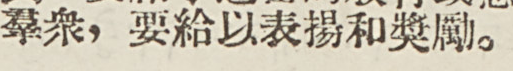羣衆，要給以表揚和獎勵。
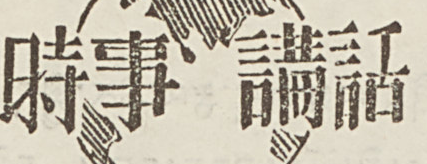時事 講話
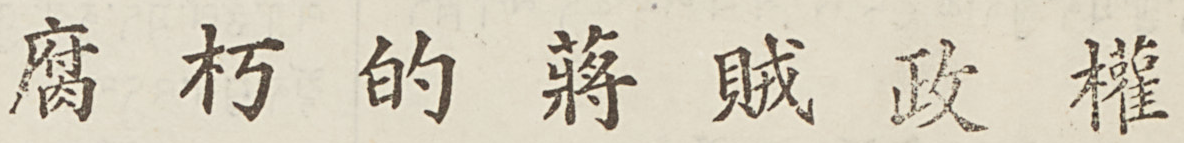腐 朽 的 蔣 賊 政 權
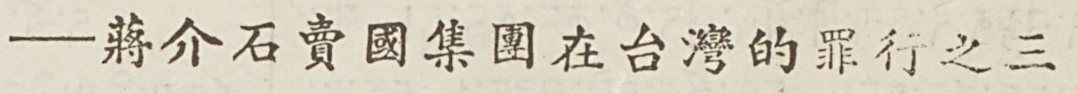——蔣介石賣國集團在台灣的罪行之三
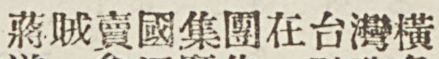蔣賊賣國集團在台灣橫
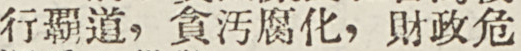行霸道，貪污腐化，財政危
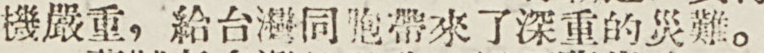機嚴重，給台灣同胞帶來了深重的災難。
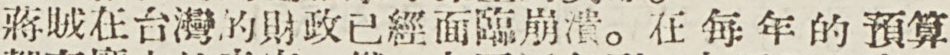蔣賊在台灣的財政已經面臨崩潰。在每年的預算
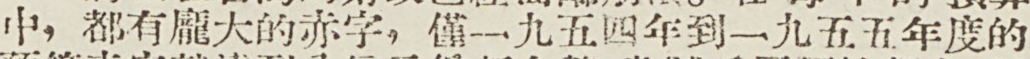中，都有龐大的赤字，僅一九五四年到一九五五年度的
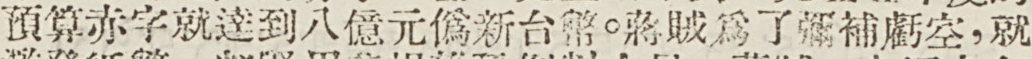預算赤字就達到八億元僞新台幣。蔣賊爲了彌補虧空，就
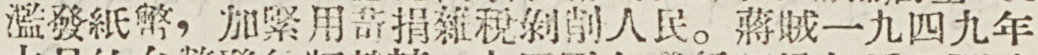濫發紙幣，加緊用苛捐雜稅剝削人民。蔣賊一九四九年
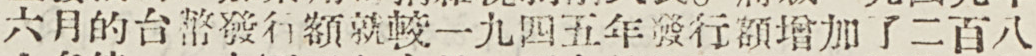六月的台幣發行額就較一九四五年發行額增加了二百八
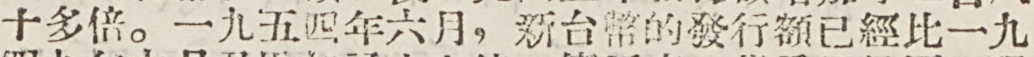十多倍。一九五四年六月，新台幣的發行額已經比一九
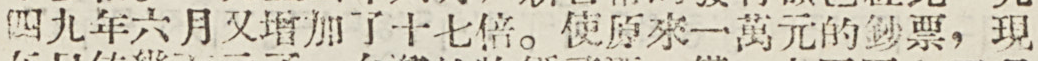四九年六月又增加了十七倍。使原來一萬元的鈔票，現
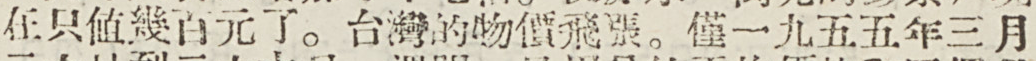在只値幾百元了。台灣的物價飛漲。僅一九五五年三月
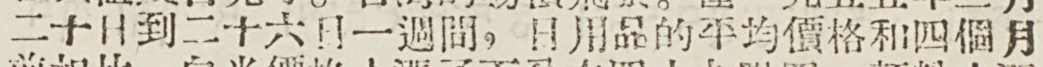二十日到二十六日一週間，日用品的平均價格和四個月
